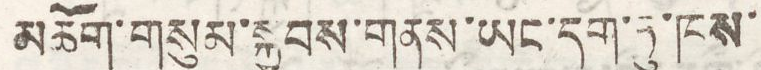མཆོག་གསུམ་སྐྱབས་གནས་ཡང་དག་ཏུ་ཁས་
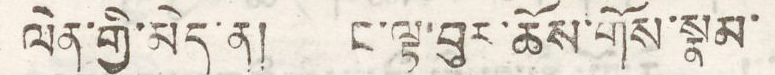ལེན་གྱི་མེད་ན། ང་ལྟ་བུར་ཆོས་གོས་སྣམ་
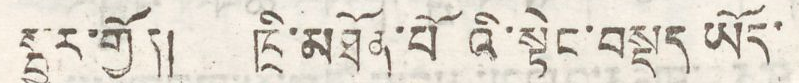སྦྱར་གྱོན། ཁྲི་མཐོན་པོའི་སྟེང་བསྡད ཡོད་
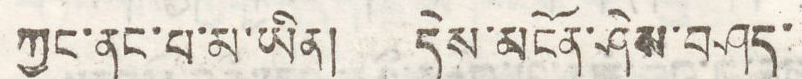ཀྱང་ནང་པ་མ་ཡིན། དེས་མངོན་ཤེས་བཤད་
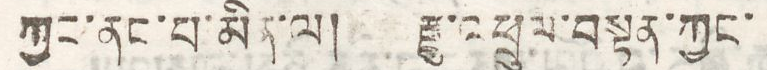ཀྱང་ནང་པ་མིན་ལ། རྫུ་འཕྲུལ་བསྟན་ཀྱང་
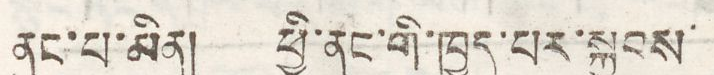ནང་པ་མིན། ཕྱི་ནང་གི་ཁྱད་པར་སྐྱབས་
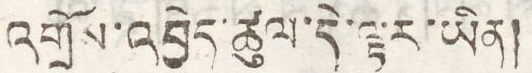འགྲོས་འབྱོར་ཚུལ་དེ་ལྟར་ཡིན།
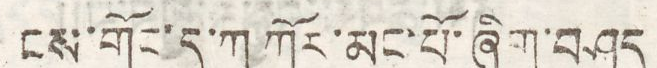ངས་གོང་དུ་ཀ ཀོར་མང་པོ་ཞིག་བཤད
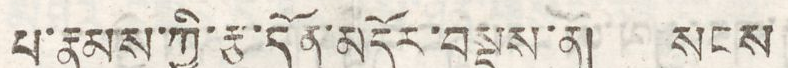པ་རྣམས་ཀྱི་རྩ་དོན་མདོར་བསྡུས་ན། སངས
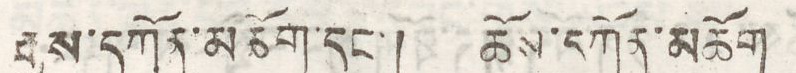རྒྱས་དཀོན་མཆོག་དང་། ཆོས་དཀོན་མཆོག
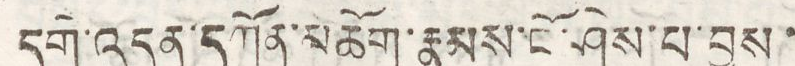དགེ་འདུན་དཀོན་མཆོག་རྣམས་ངོ་ཤེས་པ་བྱས་
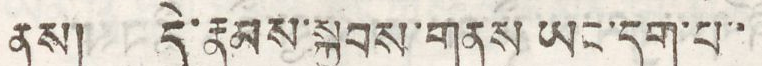ནས། དེ་རྣམས་སྐྱབས་གནས་ཡང་དག་པ་་
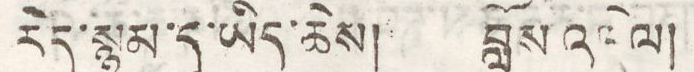རེད་སྙམ་དུ་ཡིད་ཆེས། བློས འཁེལ།
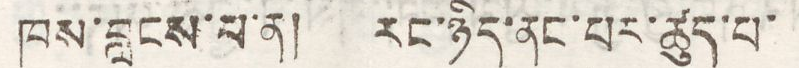ཁས་བླངས་པ་ན། རང་ཉིད་ནང་པར་ཚུད་པ་
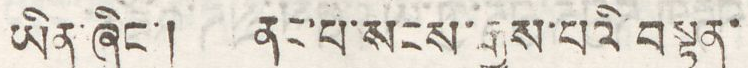ཡིན་ཞིང་། ནང་པ་སངས་རྒྱས་པའི་བསྟན་
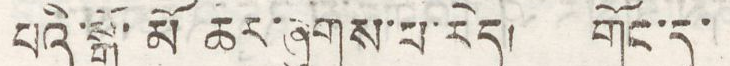པའི་སྒོ་མོ ཆར་ཞུགས་པ་རེད། གོང་དུ་
